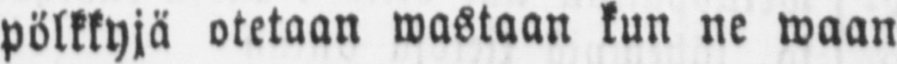pölkkyjä otetaan wastaan kun ne waan
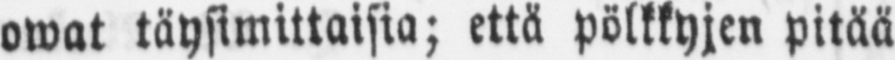owat täysimittaisia; että pölkkyjen pitää
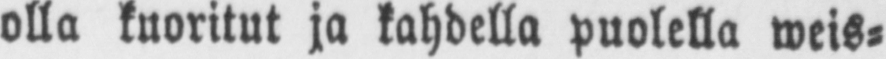olla kuoritut ja kahdella puolella weis-
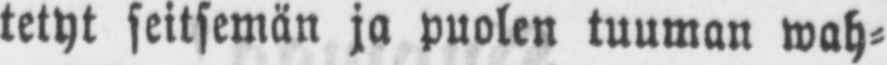tetyt seitsemän ja puolen tuuman wah-
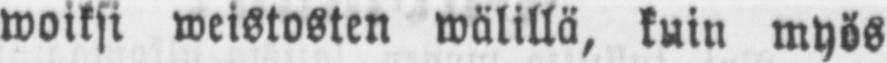woiksi weistosten wälillä, kuin myös
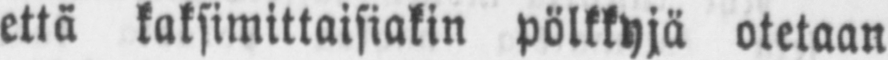että kaksimittaisiakin pölkkyjä otetaan
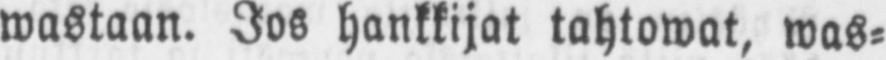wastaan. Jos hankkijat tahtowat, was-
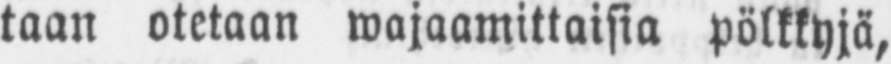taan otetaan wajaamittaisia Pölkkyjä,
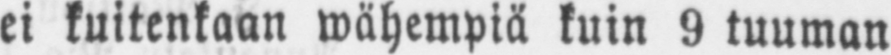ei kuitenkaan wähempiä kuin 9 tuuman
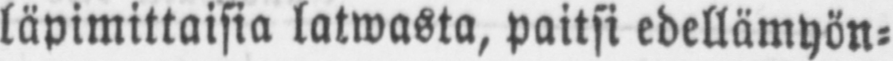läpimittaisia latwasta, paitsi edellämyön-
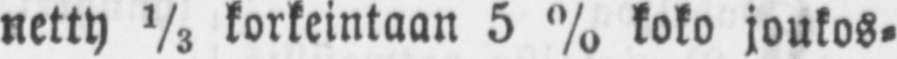netty ⅓ korkeintaan 5 % koko joukos-
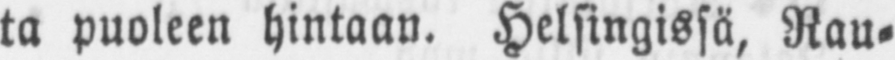ta puoleen hintaan. Helsingissä, Rau-
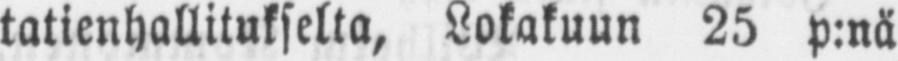tatienhallitukselta, Lokakuun 25 p:nä
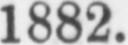1882.
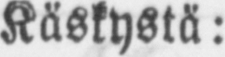Käskystä:
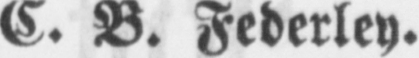C. B. Federley.
